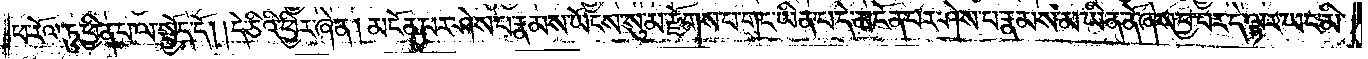ཕ་རོལ་ཏུ་ཕྱིན་པ་ལ་སྤྱོད་དོ། །དེ་ཅིའི་ཕྱིར་ཞེ་ན། མངོན་པར་ཤེས་པ་རྣམས་ཡོངས་སུ་མ་རྫོགས་པ་གང་ཡིན་པ་དེ་མངོན་པར་ཤེས་པ་རྣམས་མ་ཡིན་ནོ་ཞེས་བྱ་བ་དེ་ལྟར་ཡང་མི་
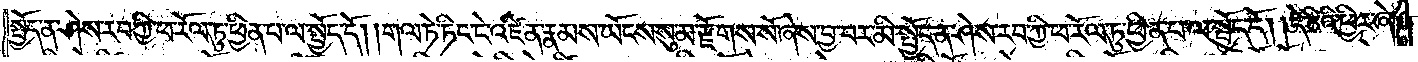སྤྱོད་ན་ཤེས་རབ་ཀྱི་ཕ་རོལ་ཏུ་ཕྱིན་པ་ལ་སྤྱོད་དོ། །གལ་ཏེ་ཏིང་ངེ་འཛིན་རྣམས་ཡོངས་སུ་མ་རྫོགས་སོ་ཞེས་བྱ་བར་མི་སྤྱོད་ན་ཤེས་རབ་ཀྱི་ཕ་རོལ་ཏུ་ཕྱིན་པ་ལ་སྤྱོད་དོ། །དེ་ཅིའི་ཕྱིར་ཞེ་
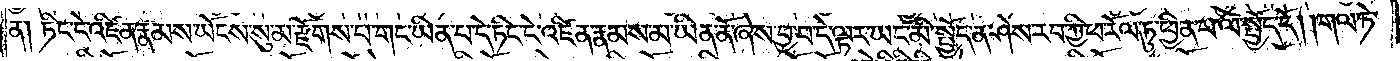ན། ཏིང་ངེ་འཛིན་རྣམས་ཡོངས་སུ་མ་རྫོགས་པ་གང་ཡིན་པ་དེ་ཏིང་ངེ་འཛིན་རྣམས་མ་ཡིན་ནོ་ཞེས་བྱ་བ་དེ་ལྟར་ཡང་མི་སྤྱོད་ན་ཤེས་རབ་ཀྱི་ཕ་རོལ་ཏུ་ཕྱིན་པ་ལ་སྤྱོད་དོ། །གལ་ཏེ་
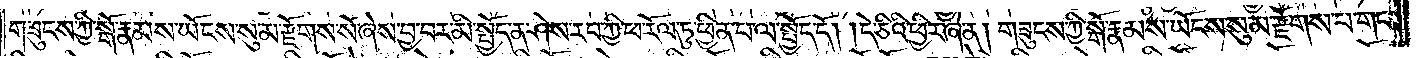གཟུངས་ཀྱི་སྒོ་རྣམས་ཡོངས་སུ་མ་རྫོགས་སོ་ཞེས་བྱ་བར་མི་སྤྱོད་ན་ཤེས་རབ་ཀྱི་ཕ་རོལ་ཏུ་ཕྱིན་པ་ལ་སྤྱོད་དོ། །དེ་ཅིའི་ཕྱིར་ཞེ་ན། གཟུངས་ཀྱི་སྒོ་རྣམས་ཡོངས་སུ་མ་རྫོགས་པ་གང་
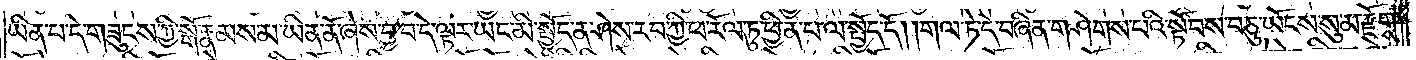ཡིན་པ་དེ་གཟུངས་ཀྱི་སྒོ་རྣམས་མ་ཡིན་ནོ་ཞེས་བྱ་བ་དེ་ལྟར་ཡང་མི་སྤྱོད་ན་ཤེས་རབ་ཀྱི་ཕ་རོལ་ཏུ་ཕྱིན་པ་ལ་སྤྱོད་དོ། །གལ་ཏེ་དེ་བཞིན་གཤེགས་པའི་སྟོབས་བཅུ་ཡོངས་སུ་མ་རྫོགས་
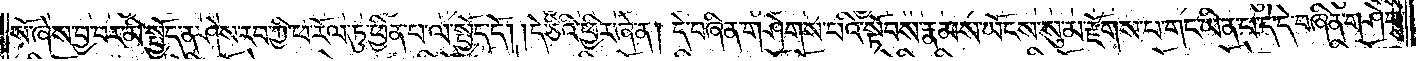སོ་ཞེས་བྱ་བར་མི་སྤྱོད་ན་ཤེས་རབ་ཀྱི་ཕ་རོལ་ཏུ་ཕྱིན་པ་ལ་སྤྱོད་དོ། །དེ་ཅིའི་ཕྱིར་ཞེ་ན། དེ་བཞིན་གཤེགས་པའི་སྟོབས་རྣམས་ཡོངས་སུ་མ་རྫོགས་པ་གང་ཡིན་པ་དེ་དེ་བཞིན་གཤེགས་
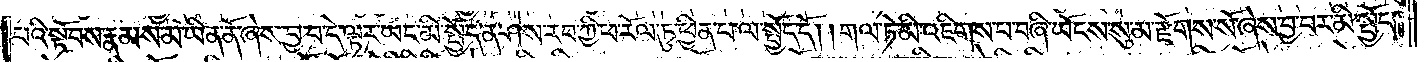པའི་སྟོབས་རྣམས་མ་ཡིན་ནོ་ཞེས་བྱ་བ་དེ་ལྟར་ཡང་མི་སྤྱོད་ན་ཤེས་རབ་ཀྱི་ཕ་རོལ་ཏུ་ཕྱིན་པ་ལ་སྤྱོད་དོ། །གལ་ཏེ་མི་འཇིགས་པ་བཞི་ཡོངས་སུ་མ་རྫོགས་སོ་ཞེས་བྱ་བར་མི་སྤྱོད་
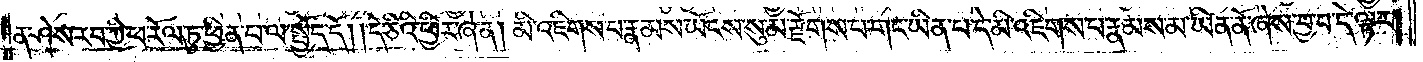ན་ཤེས་རབ་ཀྱི་ཕ་རོལ་ཏུ་ཕྱིན་པ་ལ་སྤྱོད་དོ། །དེ་ཅིའི་ཕྱིར་ཞེ་ན། མི་འཇིགས་པ་རྣམས་ཡོངས་སུ་མ་རྫོགས་པ་གང་ཡིན་པ་དེ་མི་འཇིགས་པ་རྣམས་མ་ཡིན་ནོ་ཞེས་བྱ་བ་དེ་ལྟར་
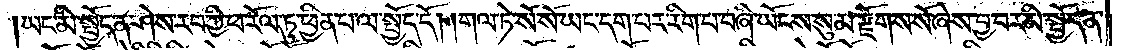ཡང་མི་སྤྱོད་ན་ཤེས་རབ་ཀྱི་ཕ་རོལ་ཏུ་ཕྱིན་པ་ལ་སྤྱོད་དོ། །གལ་ཏེ་སོ་སོ་ཡང་དག་པར་རིག་པ་བཞི་ཡོངས་སུ་མ་རྫོགས་སོ་ཞེས་བྱ་བར་མི་སྤྱོད་ན་
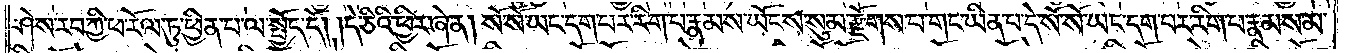ཤེས་རབ་ཀྱི་ཕ་རོལ་ཏུ་ཕྱིན་པ་ལ་སྤྱོད་དོ། །དེ་ཅིའི་ཕྱིར་ཞེ་ན། སོ་སོ་ཡང་དག་པར་རིག་པ་རྣམས་ཡོངས་སུ་མ་རྫོགས་པ་གང་ཡིན་པ་དེ་སོ་སོ་ཡང་དག་པར་རིག་པ་རྣམས་མ་
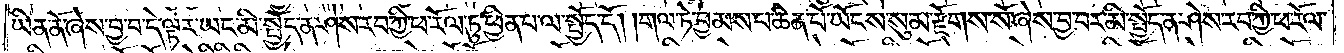ཡིན་ནོ་ཞེས་བྱ་བ་དེ་ལྟར་ཡང་མི་སྤྱོད་ན་ཤེས་རབ་ཀྱི་ཕ་རོལ་ཏུ་ཕྱིན་པ་ལ་སྤྱོད་དོ། །གལ་ཏེ་བྱམས་པ་ཆེན་པོ་ཡོངས་སུ་མ་རྫོགས་སོ་ཞེས་བྱ་བར་མི་སྤྱོད་ན་ཤེས་རབ་ཀྱི་ཕ་རོལ་
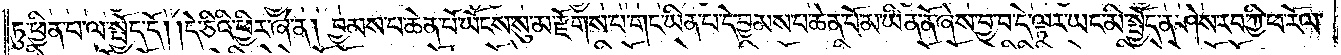ཏུ་ཕྱིན་པ་ལ་སྤྱོད་དོ། །དེ་ཅིའི་ཕྱིར་ཞེ་ན། བྱམས་པ་ཆེན་པོ་ཡོངས་སུ་མ་རྫོགས་པ་གང་ཡིན་པ་དེ་བྱམས་པ་ཆེན་པོ་མ་ཡིན་ནོ་ཞེས་བྱ་བ་དེ་ལྟར་ཡང་མི་སྤྱོད་ན་ཤེས་རབ་ཀྱི་ཕ་རོལ་
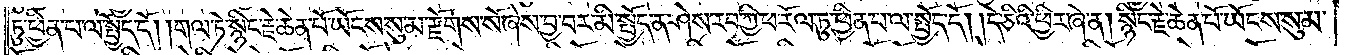ཏུ་ཕྱིན་པ་ལ་སྤྱོད་དོ། །གལ་ཏེ་སྙིང་རྗེ་ཆེན་པོ་ཡོངས་སུ་མ་རྫོགས་སོ་ཞེས་བྱ་བར་མི་སྤྱོད་ན་ཤེས་རབ་ཀྱི་ཕ་རོལ་ཏུ་ཕྱིན་པ་ལ་སྤྱོད་དོ། །དེ་ཅིའི་ཕྱིར་ཞེ་ན། སྙིང་རྗེ་ཆེན་པོ་ཡོངས་སུ་མ་
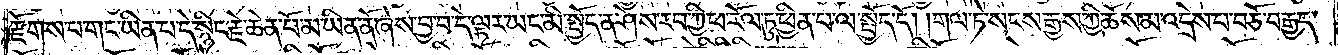རྫོགས་པ་གང་ཡིན་པ་དེ་སྙིང་རྗེ་ཆེན་པོ་མ་ཡིན་ནོ་ཞེས་བྱ་བ་དེ་ལྟར་ཡང་མི་སྤྱོད་ན་ཤེས་རབ་ཀྱི་ཕ་རོལ་ཏུ་ཕྱིན་པ་ལ་སྤྱོད་དོ། །གལ་ཏེ་སངས་རྒྱས་ཀྱི་ཆོས་མ་འདྲེས་པ་བཅོ་བརྒྱད་
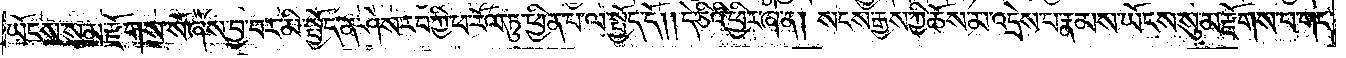ཡོངས་སུ་མ་རྫོགས་སོ་ཞེས་བྱ་བར་མི་སྤྱོད་ན་ཤེས་རབ་ཀྱི་ཕ་རོལ་ཏུ་ཕྱིན་པ་ལ་སྤྱོད་དོ། །དེ་ཅིའི་ཕྱིར་ཞེ་ན། སངས་རྒྱས་ཀྱི་ཆོས་མ་འདྲེས་པ་རྣམས་ཡོངས་སུ་མ་རྫོགས་པ་གང་
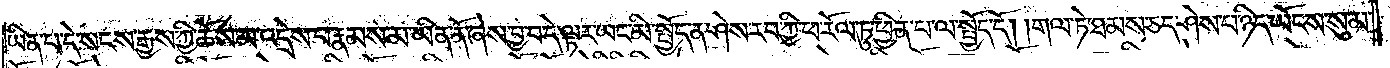ཡིན་པ་དེ་སངས་རྒྱས་ཀྱི་ཆོས་མ་འདྲེས་པ་རྣམས་མ་ཡིན་ནོ་ཞེས་བྱ་བ་དེ་ལྟར་ཡང་མི་སྤྱོད་ན་ཤེས་རབ་ཀྱི་ཕ་རོལ་ཏུ་ཕྱིན་པ་ལ་སྤྱོད་དོ། །གལ་ཏེ་ཐམས་ཅད་ཤེས་པ་ཉིད་ཡོངས་སུ་མ་
